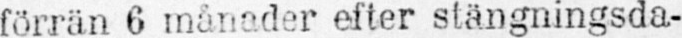förrän 6 månader efter stängningsda-
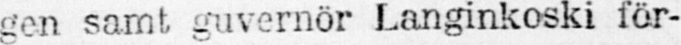gen samt guvernör Langinkoski för-
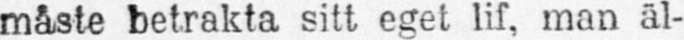måste betrakta sitt eget lif, man äl-
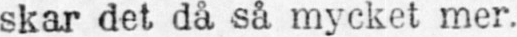skar det då så mycket mer.
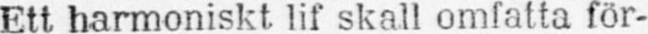Ett harmoniskt lif skall omfatta för-
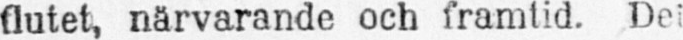flutet, närvarande och framtid. Dei
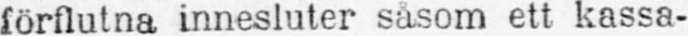förflutna innesluter såsom ett kassa-
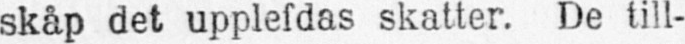skåp det upplefdas skatter. De till-
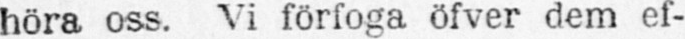höra oss. Vi förfoga öfver dem ef-
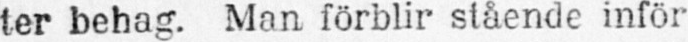ter behag. Man förblir stående inför
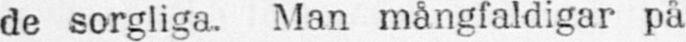de sorgliga. Man mångfaldigar på
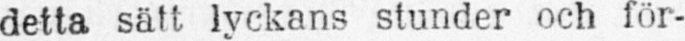detta sätt lyckans stunder och för-
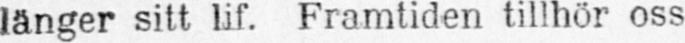länger sitt lif. Framtiden tillhör oss
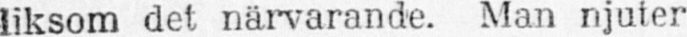liksom det närvarande. Man njuter
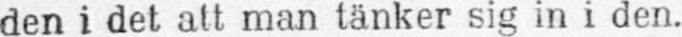den i det att man tänker sig in i den.
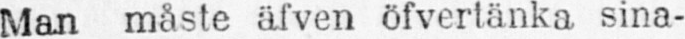Man måste äfven öfvertänka sina-
